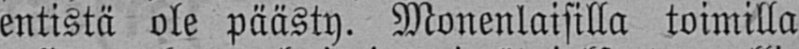entistä ole päästy. Monenlaisilla toimilla
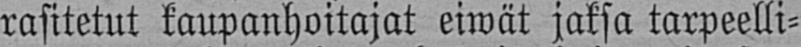rasitetut kaupanhoitajat eiwät jaksa tarpeelli-
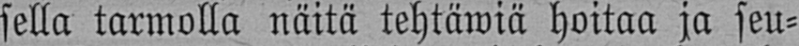sella tarmolla näitä tehtäwiä hoitaa ja seu-
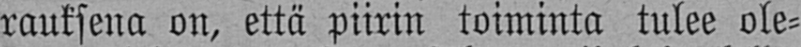rauksena on, että piirin toiminta tulee ole-
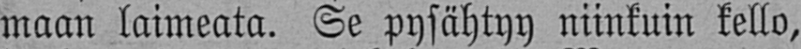maan laimeata. Se pysähtyy niinkuin kello,
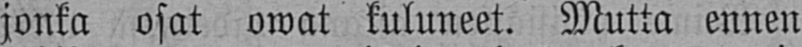jonka osat owat kuluneet. Mutta ennen
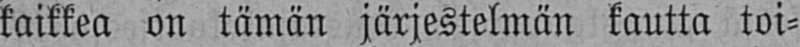kaikkea on tämän järjestelmän kautta toi-
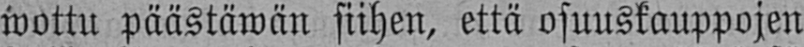wottu päästäwän siihen, että osuuskauppojen
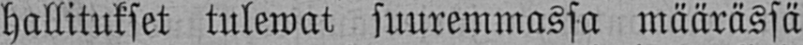hallitukset tulewat suuremmassa määrässä
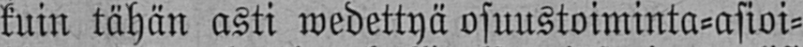kuin tähän asti wedettyä osuustoiminta-asioi-
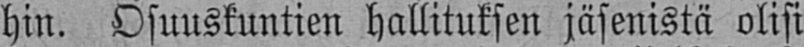hin. Osuuskuntien hallituksen jäsenistä olisi
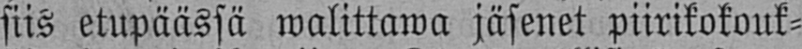siis etupäässä walittawa jäsenet piirikokouk-
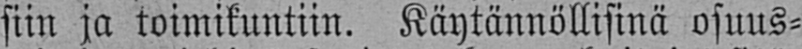siin ja toimikuntiin. Käytännöllisinä osuus-
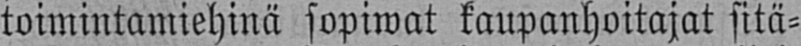toimintamiehinä sopiwat kaupanhoitajat sitä-
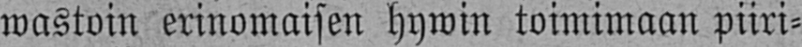wastoin erinomaisen hywin toimimaan piiri-
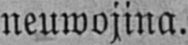neuwojina.
